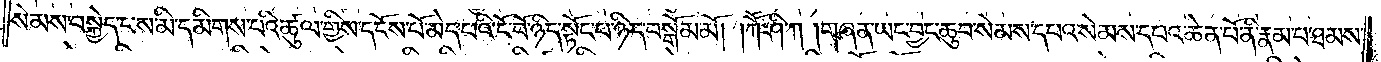སེམས་བསྐྱེད་པས་མི་དམིགས་པའི་ཚུལ་གྱིས་དངོས་པོ་མེད་པའི་ངོ་བོ་ཉིད་སྟོང་པ་ཉིད་བསྒོམ་མོ། །ཀཽ་ཤི་ཀ །གཞན་ཡང་བྱང་ཆུབ་སེམས་དཔའ་སེམས་དཔའ་ཆེན་པོ་ནི་རྣམ་པ་ཐམས་
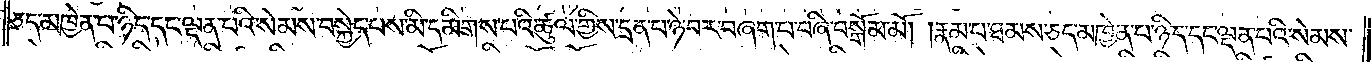ཅད་མཁྱེན་པ་ཉིད་དང་ལྡན་པའི་སེམས་བསྐྱེད་པས་མི་དམིགས་པའི་ཚུལ་གྱིས་དྲན་པ་ཉེ་བར་བཞག་པ་བཞི་བསྒོམ་མོ། །རྣམ་པ་ཐམས་ཅད་མཁྱེན་པ་ཉིད་དང་ལྡན་པའི་སེམས་
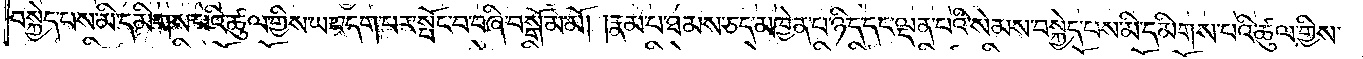བསྐྱེད་པས་མི་དམིགས་པའི་ཚུལ་གྱིས་ཡང་དག་པར་སྤོང་བ་བཞི་བསྒོམ་མོ། །རྣམ་པ་ཐམས་ཅད་མཁྱེན་པ་ཉིད་དང་ལྡན་པའི་སེམས་བསྐྱེད་པས་མི་དམིགས་པའི་ཚུལ་གྱིས་
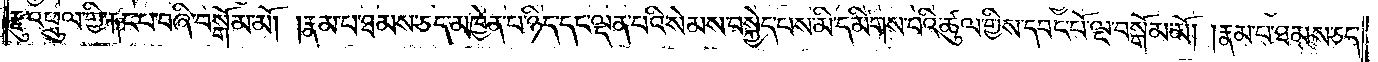རྫུ་འཕྲུལ་གྱི་རྐང་པ་བཞི་བསྒོམ་མོ། །རྣམ་པ་ཐམས་ཅད་མཁྱེན་པ་ཉིད་དང་ལྡན་པའི་སེམས་བསྐྱེད་པས་མི་དམིགས་པའི་ཚུལ་གྱིས་དབང་པོ་ལྔ་བསྒོམ་མོ། །རྣམ་པ་ཐམས་ཅད་
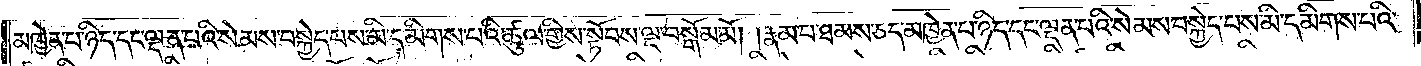མཁྱེན་པ་ཉིད་དང་ལྡན་པའི་སེམས་བསྐྱེད་པས་མི་དམིགས་པའི་ཚུལ་གྱིས་སྟོབས་ལྔ་བསྒོམ་མོ། །རྣམ་པ་ཐམས་ཅད་མཁྱེན་པ་ཉིད་དང་ལྡན་པའི་སེམས་བསྐྱེད་པས་མི་དམིགས་པའི་
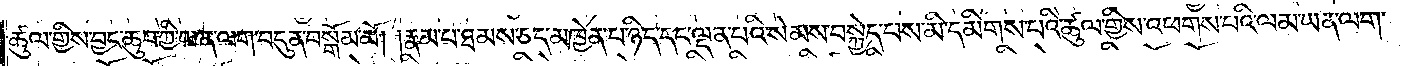ཚུལ་གྱིས་བྱང་ཆུབ་ཀྱི་ཡན་ལག་བདུན་བསྒོམ་མོ། །རྣམ་པ་ཐམས་ཅད་མཁྱེན་པ་ཉིད་དང་ལྡན་པའི་སེམས་བསྐྱེད་པས་མི་དམིགས་པའི་ཚུལ་གྱིས་འཕགས་པའི་ལམ་ཡན་ལག་
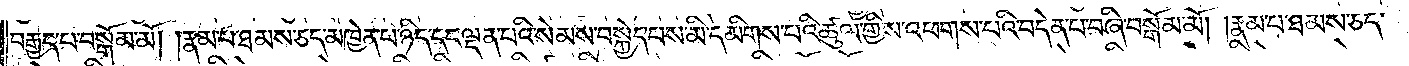བརྒྱད་པ་བསྒོམ་མོ། །རྣམ་པ་ཐམས་ཅད་མཁྱེན་པ་ཉིད་དང་ལྡན་པའི་སེམས་བསྐྱེད་པས་མི་དམིགས་པའི་ཚུལ་གྱིས་འཕགས་པའི་བདེན་པ་བཞི་བསྒོམ་མོ། །རྣམ་པ་ཐམས་ཅད་
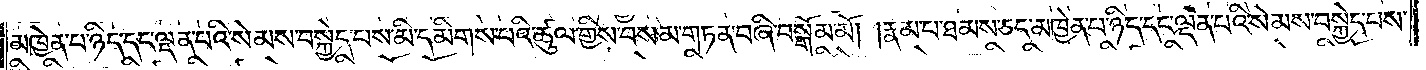མཁྱེན་པ་ཉིད་དང་ལྡན་པའི་སེམས་བསྐྱེད་པས་མི་དམིགས་པའི་ཚུལ་གྱིས་བསམ་གཏན་བཞི་བསྒོམ་མོ། །རྣམ་པ་ཐམས་ཅད་མཁྱེན་པ་ཉིད་དང་ལྡན་པའི་སེམས་བསྐྱེད་པས་
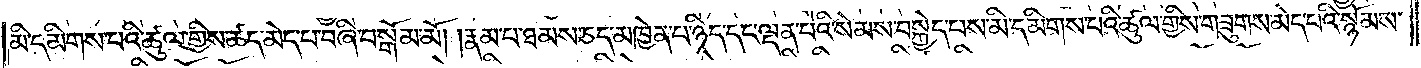མི་དམིགས་པའི་ཚུལ་གྱིས་ཚད་མེད་པ་བཞི་བསྒོམ་མོ། །རྣམ་པ་ཐམས་ཅད་མཁྱེན་པ་ཉིད་དང་ལྡན་པའི་སེམས་བསྐྱེད་པས་མི་དམིགས་པའི་ཚུལ་གྱིས་གཟུགས་མེད་པའི་སྙོམས་
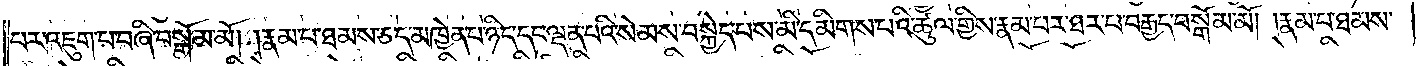པར་འཇུག་པ་བཞི་བསྒོམ་མོ། །རྣམ་པ་ཐམས་ཅད་མཁྱེན་པ་ཉིད་དང་ལྡན་པའི་སེམས་བསྐྱེད་པས་མི་དམིགས་པའི་ཚུལ་གྱིས་རྣམ་པར་ཐར་པ་བརྒྱད་བསྒོམ་མོ། །རྣམ་པ་ཐམས་
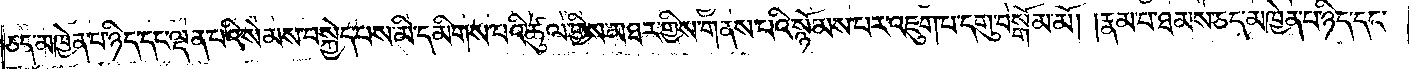ཅད་མཁྱེན་པ་ཉིད་དང་ལྡན་པའི་སེམས་བསྐྱེད་པས་མི་དམིགས་པའི་ཚུལ་གྱིས་མཐར་གྱིས་གནས་པའི་སྙོམས་པར་འཇུག་པ་དགུ་བསྒོམ་མོ། །རྣམ་པ་ཐམས་ཅད་མཁྱེན་པ་ཉིད་དང་
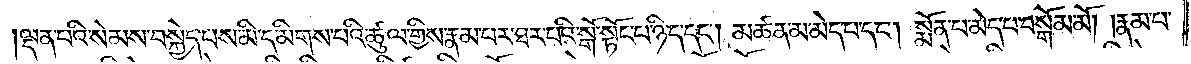ལྡན་པའི་སེམས་བསྐྱེད་པས་མི་དམིགས་པའི་ཚུལ་གྱིས་རྣམ་པར་ཐར་པའི་སྒོ་སྟོང་པ་ཉིད་དང༌། མཚན་མ་མེད་པ་དང༌། སྨོན་པ་མེད་པ་བསྒོམ་མོ། །རྣམ་པ་
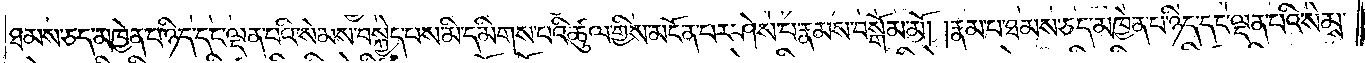ཐམས་ཅད་མཁྱེན་པ་ཉིད་དང་ལྡན་པའི་སེམས་བསྐྱེད་པའི་སེམས་བསྐྱེད་པས་མི་དམིགས་པའི་ཚུལ་གྱིས་མངོན་པར་ཤེས་པ་རྣམས་བསྒོམ་མོ། །རྣམ་པ་ཐམས་ཅད་མཁྱེན་པ་ཉིད་དང་ལྡན་པའི་སེམས་
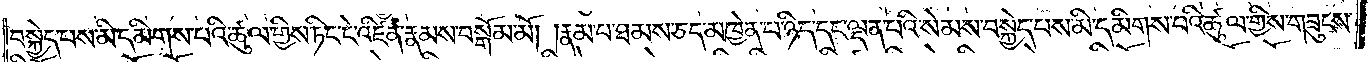བསྐྱེད་པས་མི་དམིགས་པའི་ཚུལ་གྱིས་ཏིང་ངེ་འཛིན་རྣམས་བསྒོམ་མོ། །རྣམ་པ་ཐམས་ཅད་མཁྱེན་པ་ཉིད་དང་ལྡན་པའི་སེམས་བསྐྱེད་པས་མི་དམིགས་པའི་ཚུལ་གྱིས་གཟུངས་
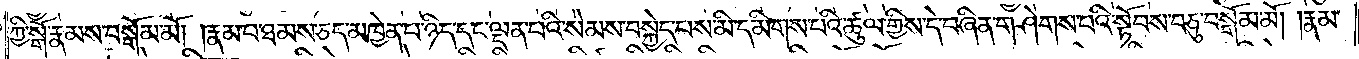ཀྱི་སྒོ་རྣམས་བསྒོམ་མོ། །རྣམ་པ་ཐམས་ཅད་མཁྱེན་པ་ཉིད་དང་ལྡན་པའི་སེམས་བསྐྱེད་པས་མི་དམིགས་པའི་ཚུལ་གྱིས་དེ་བཞིན་གཤེགས་པའི་སྟོབས་བཅུ་བསྒོམ་མོ། །རྣམ་
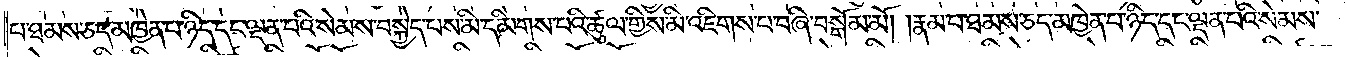པ་ཐམས་ཅད་མཁྱེན་པ་ཉིད་དང་ལྡན་པའི་སེམས་བསྐྱེད་པས་མི་དམིགས་པའི་ཚུལ་གྱིས་མི་འཇིགས་པ་བཞི་བསྒོམ་མོ། །རྣམ་པ་ཐམས་ཅད་མཁྱེན་པ་ཉིད་དང་ལྡན་པའི་སེམས་
